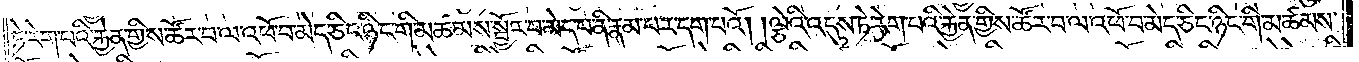ཏེ་རེག་པའི་རྐྱེན་གྱིས་ཚོར་བ་ལ་འཕོ་བ་མེད་ཅིང་ཉིང་གི་མཚམས་སྦྱོར་བ་མེད་པ་ནི་རྣམ་པར་དག་པའོ། །ལྕེའི་འདུས་ཏེ་རེག་པའི་རྐྱེན་གྱིས་ཚོར་བ་ལ་འཕོ་བ་མེད་ཅིང་ཉིང་གི་མཚམས་
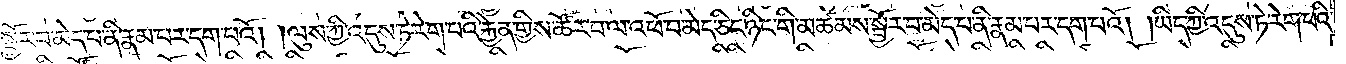སྦྱོར་བ་མེད་པ་ནི་རྣམ་པར་དག་པའོ། །ལུས་ཀྱི་འདུས་ཏེ་རེག་པའི་རྐྱེན་གྱིས་ཚོར་བ་ལ་འཕོ་བ་མེད་ཅིང་ཉིང་གི་མཚམས་སྦྱོར་བ་མེད་པ་ནི་རྣམ་པར་དག་པའོ། །ཡིད་ཀྱི་འདུས་ཏེ་རེག་པའི་
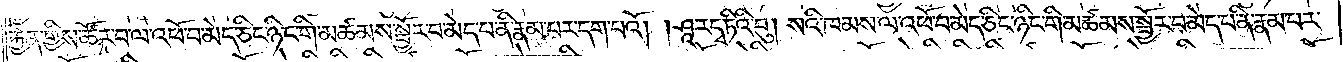རྐྱེན་གྱིས་ཚོར་བ་ལ་འཕོ་བ་མེད་ཅིང་ཉིང་གི་མཚམས་སྦྱོར་བ་མེད་པ་ནི་རྣམ་པར་དག་པའོ། །ཤཱ་རདྭ་ཏིའི་བུ། སའི་ཁམས་ལ་འཕོ་བ་མེད་ཅིང་ཉིང་གི་མཚམས་སྦྱོར་བ་མེད་པ་ནི་རྣམ་པར་
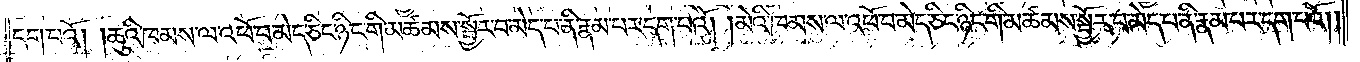དག་པའོ། །ཆུའི་ཁམས་ལ་འཕོ་བ་མེད་ཅིང་ཉིང་གི་མཚམས་སྦྱོར་བ་མེད་པ་ནི་རྣམ་པར་དག་པའོ། །མེའི་ཁམས་ལ་འཕོ་བ་མེད་ཅིང་ཉིང་གི་མཚམས་སྦྱོར་བ་མེད་པ་ནི་རྣམ་པར་དག་པའོ། །
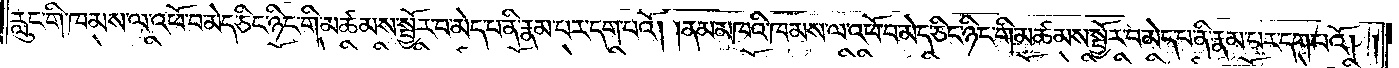རླུང་གི་ཁམས་ལ་འཕོ་བ་མེད་ཅིང་ཉིང་གི་མཚམས་སྦྱོར་བ་མེད་པ་ནི་རྣམ་པར་དག་པའོ། །ནམ་མཁའི་ཁམས་ལ་འཕོ་བ་མེད་ཅིང་ཉིང་གི་མཚམས་སྦྱོར་བ་མེད་པ་ནི་རྣམ་པར་དག་པའོ། །
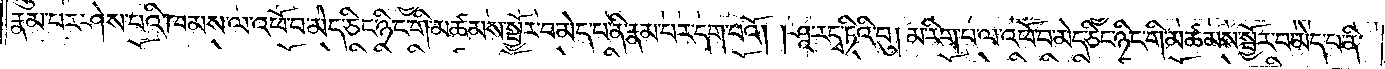རྣམ་པར་ཤེས་པའི་ཁམས་ལ་འཕོ་བ་མེད་ཅིང་ཉིང་གི་མཚམས་སྦྱོར་བ་མེད་པ་ནི་རྣམ་པར་དག་པའོ། །ཤཱ་རདྭ་ཏིའི་བུ། མ་རིག་པ་ལ་འཕོ་བ་མེད་ཅིང་ཉིང་གི་མཚམས་སྦྱོར་བ་མེད་པ་ནི་
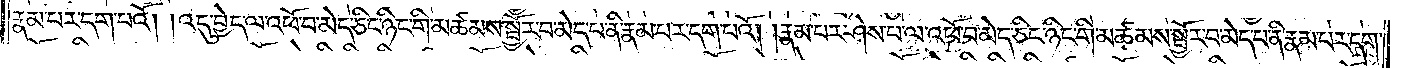རྣམ་པར་དག་པའོ། །འདུ་བྱེད་ལ་འཕོ་བ་མེད་ཅིང་ཉིང་གི་མཚམས་སྦྱོར་བ་མེད་པ་ནི་རྣམ་པར་དག་པའོ། །རྣམ་པར་ཤེས་པ་ལ་འཕོ་བ་མེད་ཅིང་ཉིང་གི་མཚམས་སྦྱོར་བ་མེད་པ་ནི་རྣམ་པར་དག་
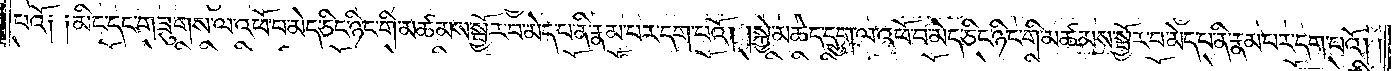པའོ༑ ༑མིང་དང་གཟུགས་ལ་འཕོ་བ་མེད་ཅིང་ཉིང་གི་མཚམས་སྦྱོར་བ་མེད་པ་ནི་རྣམ་པར་དག་པའོ། །སྐྱེ་མཆེད་དྲུག་ལ་འཕོ་བ་མེད་ཅིང་ཉིང་གི་མཚམས་སྦྱོར་བ་མེད་པ་ནི་རྣམ་པར་དག་པའོ། །
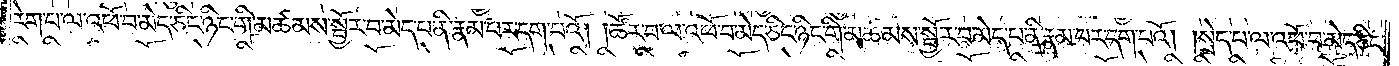རེག་པ་ལ་འཕོ་བ་མེད་ཅིང་ཉིང་གི་མཚམས་སྦྱོར་བ་མེད་པ་ནི་རྣམ་པར་དག་པའོ། །ཚོར་བ་ལ་འཕོ་བ་མེད་ཅིང་ཉིང་གི་མཚམས་སྦྱོར་བ་མེད་པ་ནི་རྣམ་པར་དག་པའོ། །སྲེད་པ་ལ་འཕོ་བ་མེད་ཅིང་
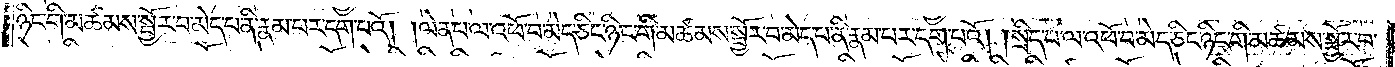ཉིང་གི་མཚམས་སྦྱོར་བ་མེད་པ་ནི་རྣམ་པར་དག་པའོ། །ལེན་པ་ལ་འཕོ་བ་མེད་ཅིང་ཉིང་གི་མཚམས་སྦྱོར་བ་མེད་པ་ནི་རྣམ་པར་དག་པའོ། །སྲིད་པ་ལ་འཕོ་བ་མེད་ཅིང་ཉིང་གི་མཚམས་སྦྱོར་བ་
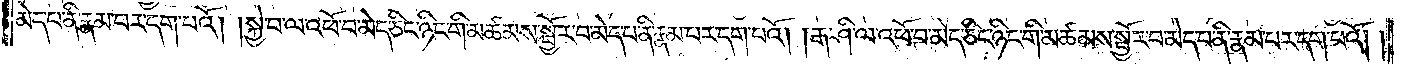མེད་པ་ནི་རྣམ་པར་དག་པའོ། །སྐྱེ་བ་ལ་འཕོ་བ་མེད་ཅིང་ཉིང་གི་མཚམས་སྦྱོར་བ་མེད་པ་ནི་རྣམ་པར་དག་པའོ། །རྒ་ཤི་ལ་འཕོ་བ་མེད་ཅིང་ཉིང་གི་མཚམས་སྦྱོར་བ་མེད་པ་ནི་རྣམ་པར་དག་པའོ༎
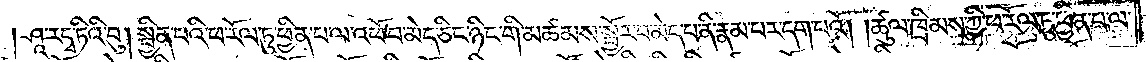ཤཱ་རདྭ་ཏིའི་བུ། སྦྱིན་པའི་ཕ་རོལ་ཏུ་ཕྱིན་པ་ལ་འཕོ་བ་མེད་ཅིང་ཉིང་གི་མཚམས་སྦྱོར་བ་མེད་པ་ནི་རྣམ་པར་དག་པའོ། །ཚུལ་ཁྲིམས་ཀྱི་ཕ་རོལ་ཏུ་ཕྱིན་པ་ལ་
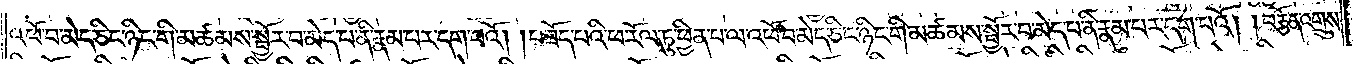འཕོ་བ་མེད་ཅིང་ཉིང་གི་མཚམས་སྦྱོར་བ་མེད་པ་ནི་རྣམ་པར་དག་པའོ། །བཟོད་པའི་ཕ་རོལ་ཏུ་ཕྱིན་པ་ལ་འཕོ་བ་མེད་ཅིང་ཉིང་གི་མཚམས་སྦྱོར་བ་མེད་པ་ནི་རྣམ་པར་དག་པའོ། །བརྩོན་འགྲུས་
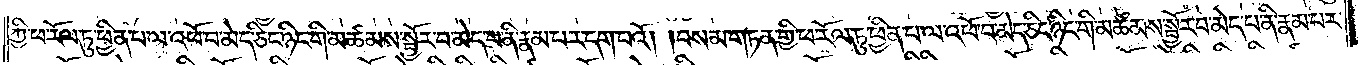ཀྱི་ཕ་རོལ་ཏུ་ཕྱིན་པ་ལ་འཕོ་བ་མེད་ཅིང་ཉིང་གི་མཚམས་སྦྱོར་བ་མེད་པ་ནི་རྣམ་པར་དག་པའོ། །བསམ་གཏན་གྱི་ཕ་རོལ་ཏུ་ཕྱིན་པ་ལ་འཕོ་བ་མེད་ཅིང་ཉིང་གི་མཚམས་སྦྱོར་བ་མེད་པ་ནི་རྣམ་པར་
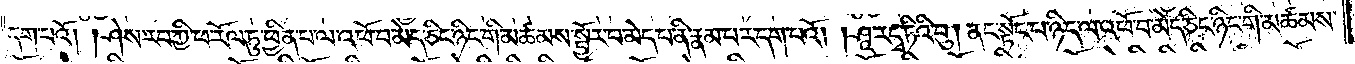དག་པའོ། །ཤེས་རབ་ཀྱི་ཕ་རོལ་ཏུ་ཕྱིན་པ་ལ་འཕོ་བ་མེད་ཅིང་ཉིང་གི་མཚམས་སྦྱོར་བ་མེད་པ་ནི་རྣམ་པར་དག་པའོ། །ཤཱ་ར་དྭ་ཏིའི་བུ། ནང་སྟོང་པ་ཉིད་ལ་འཕོ་བ་མེད་ཅིང་ཉིང་གི་མཚམས་
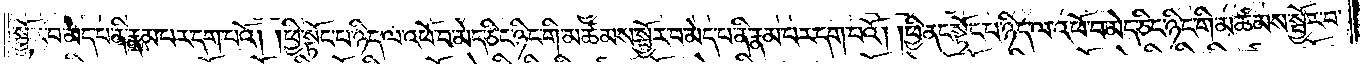སྦྱོར་བ་མེད་པ་ནི་རྣམ་པར་དག་པའོ། །ཕྱི་སྟོང་པ་ཉིད་ལ་འཕོ་བ་མེད་ཅིང་ཉིང་གི་མཚམས་སྦྱོར་བ་མེད་པ་ནི་རྣམ་པར་དག་པའོ། །ཕྱི་ནང་སྟོང་པ་ཉིད་ལ་འཕོ་བ་མེད་ཅིང་ཉིང་གི་མཚམས་སྦྱོར་བ་
